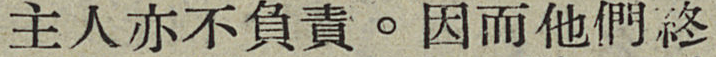主任亦不負責。因而他們終
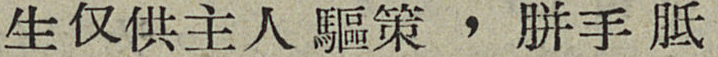省仅供主人驅策，胼手胝
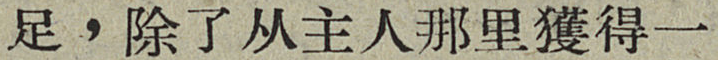足，除了从主人那里獲得一
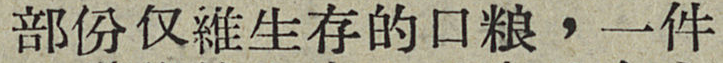部份仅維生存的口粮，一件
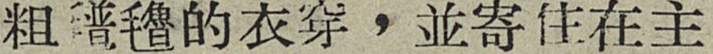粗氆氌的衣穿，並寄住在主
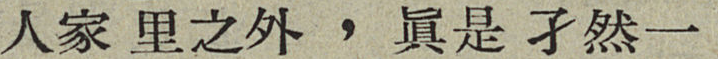人家里之外，眞是孑然一
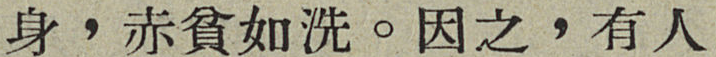身，赤貧如洗。因之，有人
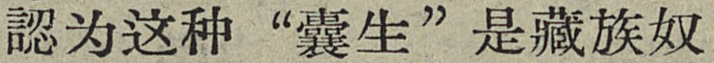認为这种“囊生”是藏族奴
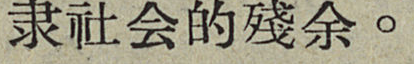隶社会的殘余。
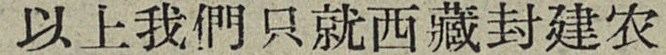以上我們只就西藏封建农
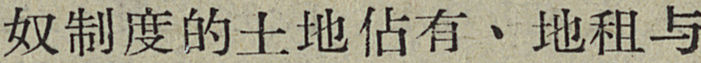奴制度的土地佔有、地租与
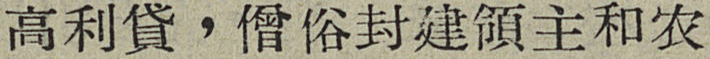高利貸，僧俗封建領主和农
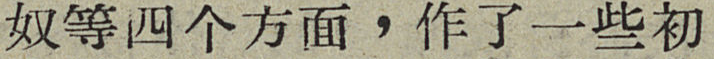奴等四各方面，作了一些初
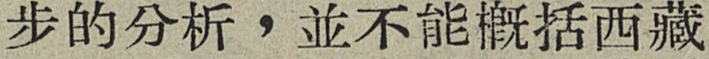步的分析，並不能概括西藏
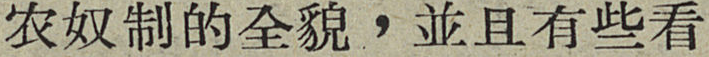农奴制的全貌，並且有些看
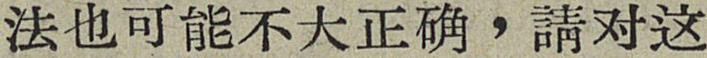法也可能不大正确，請对这
